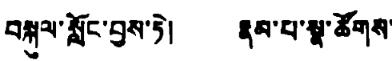བསྐུལ་སློང་བྱས་ཏེ། རྣམ་པ་སྣ་ཚོགས་
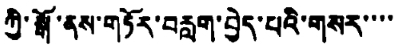ཀྱི་སྒོ་ནས་གཏོར་བརླག་བྱེད་པའི་གསར་་་་
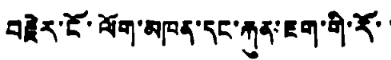བརྗེར་ངོ་ལོག་མཁན་དང་རྐུན་ཇག་གི་རོ་་
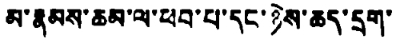མ་རྣམས་ཆམ་ལ་ཕབ་པ་དང་ཉེས་ཆད་དྲག་
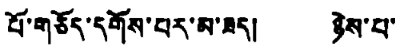པོ་གཅོད་དགོས་པར་མ་ཟད། ཉེས་པ་
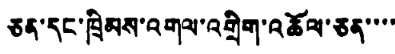ཅན་དང་ཁྲིམས་འགལ་འགྲིག་འཆོལ་ཅན་་་་
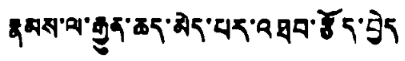རྣམས་ལ་རྒྱུན་ཆད་མེད་པར་འཐབ་རྩོད་བྱེད་
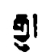རྒྱུ།
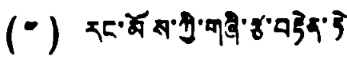(༤) རང་མོས་ཀྱི་གཞི་རྩ་བརྟེན་ཏེ
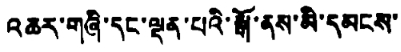འཆར་གཞི་དང་ལྡན་པའི་སྒོ་ནས་མི་དམངས་
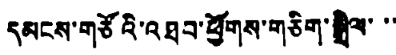དམངས་གཙོའི་འཐབ་ཕྱོགས་གཅིག་སྒྲིལ་་་
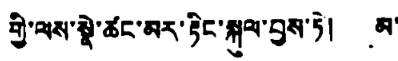གྱི་ལས་སྣེ་ཚང་མར་རྟིང་སྐུལ་བྱས་ཏེ། མ་
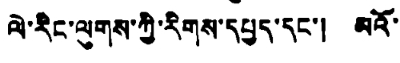ལེ་རིང་ལུགས་ཀྱི་རིགས་དཔྱད་དང་། མའོ་
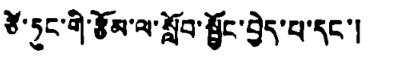ཙེ་ཏུང་གི་རྩོམ་ལ་སློབ་སྦྱོང་བྱེད་པ་དང་།
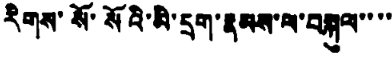རིགས་སོ་སོའི་མི་དྲག་རྣམས་ལ་བསྐུལ་་་་
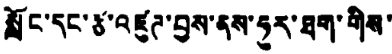སློང་དང་རྩ་འཛུཊ་བྱས་ནས་ཧུར་ཐག་གིས་
